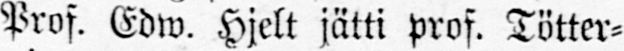Prof. Edw. Hjelt jätti prof. Tötter-
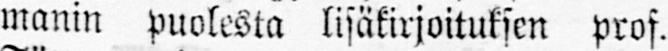manin puolesta lisäkirjoituksen prof.
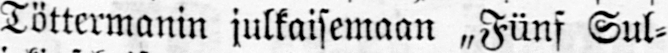Töttermanin julkaisemaan „Fünf Sul-
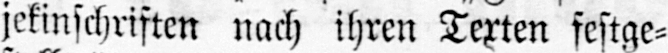jekinschriften nach ihren Texten festge-
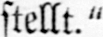stellt."
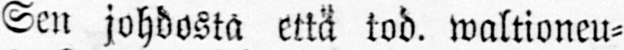Sen johdosta että tod. waltioneu-
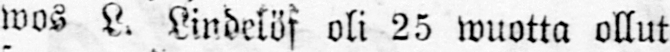wos L. Lindelöf oli 25 wuotta ollut
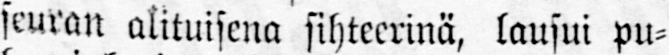seuran alituisena sihteerinä, lausui pu-
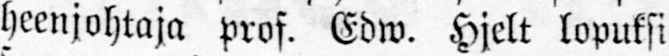heenjohtaja prof. Edw. Hjelt lopuksi
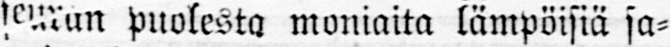seuran puolesta moniaita lämpöisiä sa-
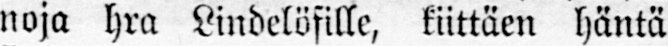noja hra Lindelöfille, kiittäen häntä
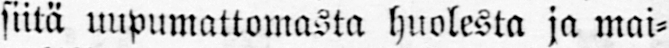siitä uupumattomasta huolesta ja mai-
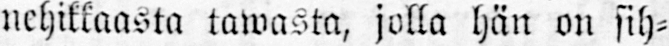nehikkaasta tawasta, jolla hän on sih-
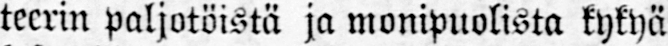teerin paljotöistä ja monipuolista kykyä
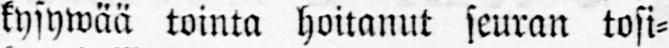kysywää tointa hoitanut seuran tosi-
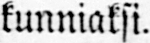kunniaksi.
